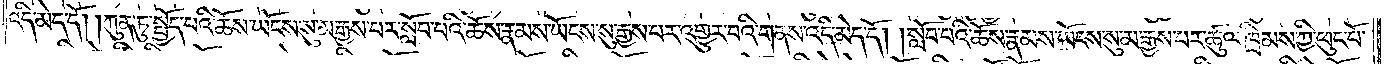འདི་མེད་དོ། །ཀུན་ཏུ་སྤྱོད་པའི་ཆོས་ཡོངས་སུ་མ་རྒྱས་པར་སློབ་པའི་ཆོས་རྣམས་ཡོངས་སུ་རྒྱས་པར་འགྱུར་བའི་གནས་འདི་མེད་དོ། །སློབ་པའི་ཆོས་རྣམས་ཡོངས་སུ་མ་རྒྱས་པར་ཚུལ་ཁྲིམས་ཀྱི་ཕུང་པོ་
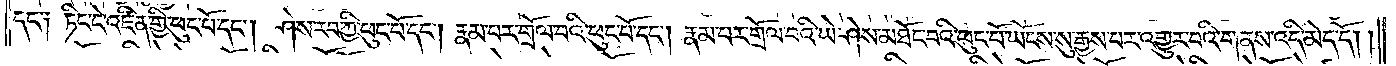དང་༑ ཏིང་ངེ་འཛིན་གྱི་ཕུང་པོ་དང༌། ཤེས་རབ་ཀྱི་ཕུང་པོ་དང༌། རྣམ་པར་གྲོལ་བའི་ཕུང་པོ་དང༌། རྣམ་པར་གྲོལ་བའི་ཡེ་ཤེས་མཐོང་བའི་ཕུང་པོ་ཡོངས་སུ་རྒྱས་པར་འགྱུར་བའི་གནས་འདི་མེད་དོ། །
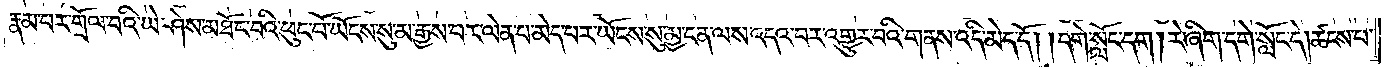རྣམ་པར་གྲོལ་བའི་ཡེ་ཤེས་མཐོང་བའི་ཕུང་པོ་ཡོངས་སུ་མ་རྒྱས་པར་ལེན་པ་མེད་པར་ཡོངས་སུ་མྱ་ངན་ལས་འདའ་བར་འགྱུར་བའི་གནས་འདི་མེད་དོ། །དགེ་སློང་དག། རེ་ཞིག་དགེ་སློང་དེ། ཚངས་པ་
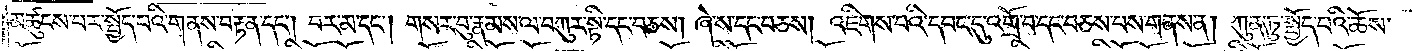མཚུངས་པར་སྤྱོད་པའི་གནས་བརྟན་དང༌། བར་མ་དང༌། གསར་བུ་རྣམས་ལ་བཀུར་སྟི་དང་བཅས། ཞེ་ས་དང་བཅས། འཇིགས་པའི་དབང་དུ་འགྲོ་བ་དང་བཅས་པས་གནས་ན། ཀུན་ཏུ་སྤྱོད་པའི་ཆོས་
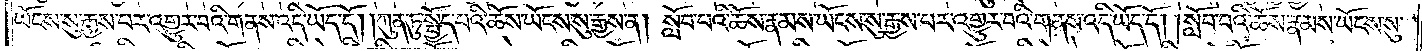ཡོངས་སུ་རྒྱས་པར་འགྱུར་བའི་གནས་འདི་ཡོད་དོ། །ཀུན་ཏུ་སྤྱོད་པའི་ཆོས་ཡོངས་སུ་རྒྱས་ན། སློབ་པའི་ཆོས་རྣམས་ཡོངས་སུ་རྒྱས་པར་འགྱུར་བའི་གནས་འདི་ཡོད་དོ། །སློབ་པའི་ཆོས་རྣམས་ཡོངས་སུ་
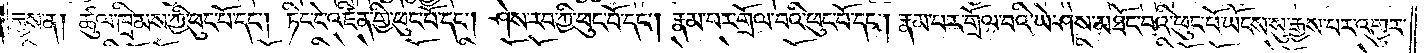རྒྱས་ན། ཚུལ་ཁྲིམས་ཀྱི་ཕུང་པོ་དང༌། ཏིང་ངེ་འཛིན་གྱི་ཕུང་པོ་དང༌། ཤེས་རབ་ཀྱི་ཕུང་པོ་དང༌། རྣམ་པར་གྲོལ་བའི་ཕུང་པོ་དང༌། རྣམ་པར་གྲོལ་བའི་ཡེ་ཤེས་མཐོང་བའི་ཕུང་པོ་ཡོངས་སུ་རྒྱས་པར་འགྱུར་
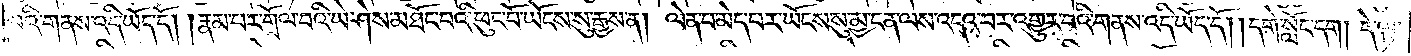བའི་གནས་འདི་ཡོད་དོ། །རྣམ་པར་གྲོལ་བའི་ཡེ་ཤེས་མཐོང་བའི་ཕུང་པོ་ཡོངས་སུ་རྒྱས་ན། ལེན་པ་མེད་པར་ཡོངས་སུ་མྱ་ངན་ལས་འདའ་བར་འགྱུར་བའི་གནས་འདི་ཡོད་དོ། །དགེ་སློང་དག། དེ་ལྟ་
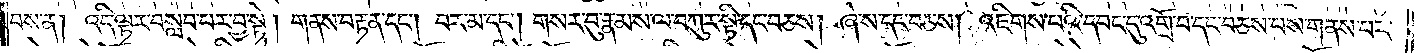བས་ན། འདི་ལྟར་བསླབ་པར་བྱ་སྟེ། གནས་བརྟན་དང༌། བར་མ་དང༌། གསར་བུ་རྣམས་ལ་བཀུར་སྟི་དང་བཅས། ཞེ་ས་དང་བཅས། འཇིགས་པའི་དབང་དུ་འགྲོ་བ་དང་བཅས་པས་གནས་པར་
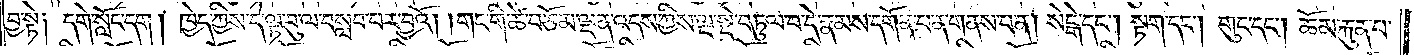བྱ་སྟེ༑ དགེ་སློང་དག། ཁྱེད་ཀྱིས་དེ་ལྟ་བུ་ལ་བསླབ་པར་བྱའོ། །གང་གི་ཚེ་བཅོམ་ལྡན་འདས་ཀྱིས་ལྔ་སྡེ་བཏུལ་བ་དེ་རྣམས་དགོན་པ་ན་གནས་པ་ན། སེངྒེ་དང༌། སྟག་དང༌། གུང་དང༌། ཆོམ་རྐུན་པ་
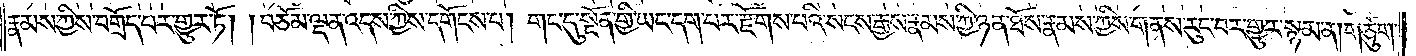རྣམས་ཀྱིས་བགྲོད་པར་གྱུར་ཏོ། །བཅོམ་ལྡན་འདས་ཀྱིས་དགོངས་པ། གང་དུ་སྔོན་གྱི་ཡང་དག་པར་རྫོགས་པའི་སངས་རྒྱས་རྣམས་ཀྱི་ཉན་ཐོས་རྣམས་ཀྱིས་གནས་རུང་བར་གྱུར་སྙམ་ན། གཙུག་
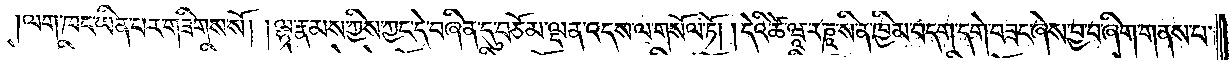ལག་ཁང་ཡིན་པར་གཟིགས་སོ། །ལྷ་རྣམས་ཀྱིས་ཀྱང་དེ་བཞིན་དུ་བཅོམ་ལྡན་འདས་ལ་གསོལ་ཏོ། །དེའི་ཚེ་ཝཱ་ར་ཎཱ་སི་ན་ཁྱིམ་བདག་དགེ་བཟང་ཞེས་བྱ་བ་ཞིག་གནས་པ་
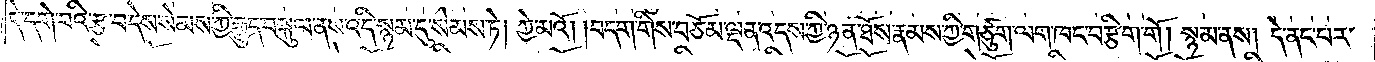དེ་དགེ་བའི་རྩ་བ་དེས་སེམས་ཀྱི་རྒྱུད་བསྐུལ་ནས་འདི་སྙམ་དུ་སེམས་ཏེ། ཀྱེ་མའོ། །བདག་གིས་བཅོམ་ལྡན་འདས་ཀྱི་ཉན་ཐོས་རྣམས་ཀྱི་གཙུག་ལག་ཁང་བརྩིག་གོ། །སྙམ་ནས། དེ་ནང་པར་
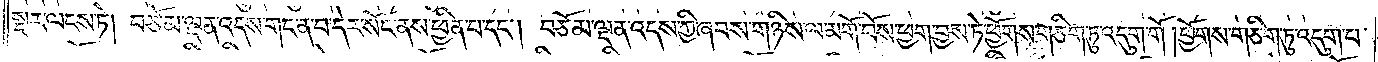སྔར་ལངས་ཏེ། བཅོམ་ལྡན་འདས་གང་ན་བ་དེར་སོང་ནས་ཕྱིན་པ་དང༌། བཅོམ་ལྡན་འདས་ཀྱི་ཞབས་གཉིས་ལ་མགོ་བོས་ཕྱག་བྱས་ཏེ་ཕྱོགས་གཅིག་ཏུ་འདུག་གོ། །ཕྱོགས་གཅིག་ཏུ་འདུག་པ་
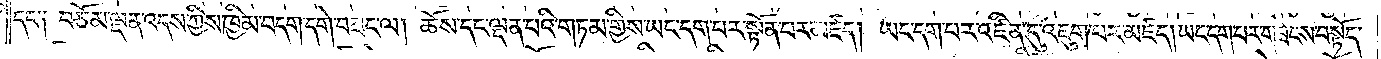དང་༑ བཅོམ་ལྡན་འདས་ཀྱིས་ཁྱིམ་བདག་དགེ་བཟང་ལ། ཆོས་དང་ལྡན་པའི་གཏམ་གྱིས་ཡང་དག་པར་སྟོན་པར་མཛད། ཡང་དག་པར་འཛིན་དུ་འཇུག་པར་མཛད། ཡང་དག་པར་གཟེངས་བསྟོད་
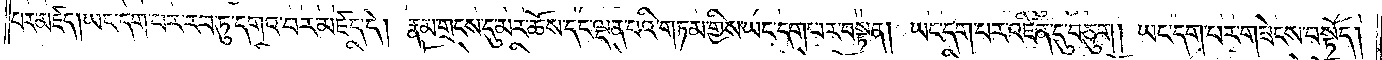པར་མཛད། ཡང་དག་པར་རབ་ཏུ་དགའ་བར་མཛད་དེ། རྣམ་གྲངས་དུ་མར་ཆོས་དང་ལྡན་པའི་གཏམ་གྱིས་ཡང་དག་པར་བསྟན། ཡང་དག་པར་འཛིན་དུ་བཅུག། ཡང་དག་པར་གཟེངས་བསྟོད།
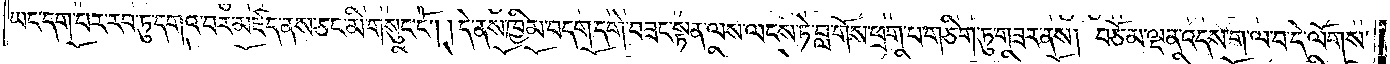ཡང་དག་པར་རབ་ཏུ་དགའ་བར་མཛད་ནས་ཅང་མི་གསུང་ངོ༌། །དེ་ནས་ཁྱིམ་བདག་དགེ་བཟང་སྟན་ལས་ལངས་ཏེ་བླ་གོས་ཕྲག་པ་གཅིག་ཏུ་གཟར་ནས། བཅོམ་ལྡན་འདས་ག་ལ་བ་དེ་ལོགས་
